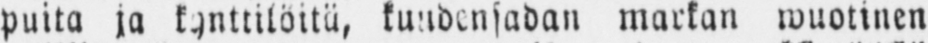puita ja kynttilöitä, kuudensadan markan wuotinen
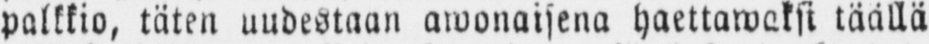palkkio, täten uudestaan awonaisena haettaweksi täällä
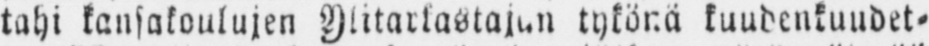tahi kansakoulujen Ylitarkastajan tykönä kuudenkuudet-
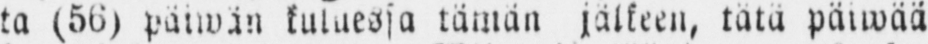ta (56) päiwän kuluessa tämän jälkeen, tätä päiwää
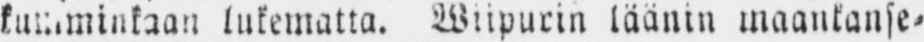kumminkaan lukematta. Wiipurin läänin maankanse-
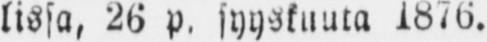lissa, 26 p. syyskuuta 1876.
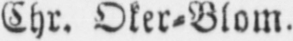Chr. Oker-Blom.
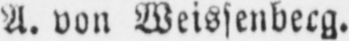A. von Weissenbecg.
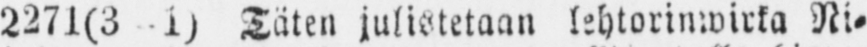2271(3-1) Täten julistetaan lehtorinwirka Ni-
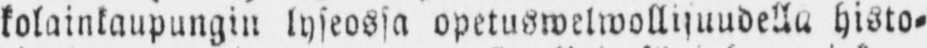kolainkaupungin lyseossa opetuswelwollisuudella histo-
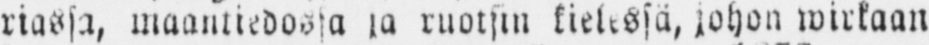riassa, maantiedossa ja ruotsin kielessä, johon wirkaan
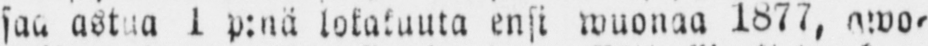saa astua 1 p:nä lokakuuta ensi wuonaa 1877, awo-
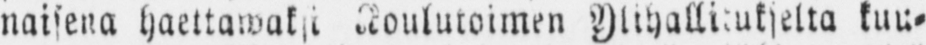naisena haettawaksi Koulutoimen Ylihallitukselta kuu-
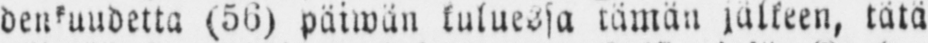denkuudetta (56) päiwän kuluessa tämän jälkeen, tätä
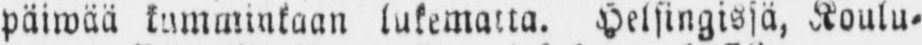päiwää kumminkaan lukematta. Helsingissä, Koulu-
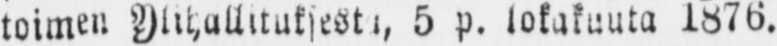toimen Ylihallituksesta, 5 p. lokakuuta 1876.
